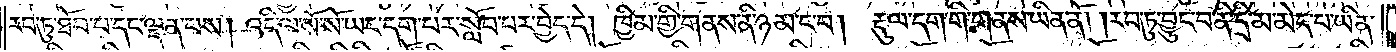རབ་ཏུ་ཐོབ་པ་དང་ལྡན་པས། འདི་ལ་སོ་སོ་ཡང་དག་པར་སློབ་པར་བྱེད་དེ། ཁྱིམ་གྱི་གནས་ནི་ཉམ་ང་བ། རྡུལ་དག་གི་གནས་ཡིན་ནོ། །རབ་ཏུ་བྱུང་བ་ནི་དྲི་མ་མེད་པ་ཡིན་
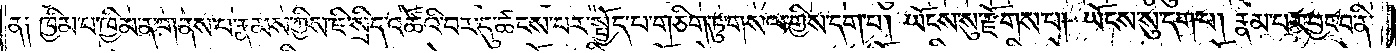ན༑ ཁྱིམ་པ་ཁྱིམ་ན་གནས་པ་རྣམས་ཀྱིས་ཇི་སྲིད་འཚོའི་བར་དུ་ཚངས་པར་སྤྱོད་པ་གཅིག་ཏུ་གསལ་གྱིས་དག་པ། ཡོངས་སུ་རྫོགས་པ། ཡོངས་སུ་དག་པ། རྣམ་པར་བྱང་བ་ནི་
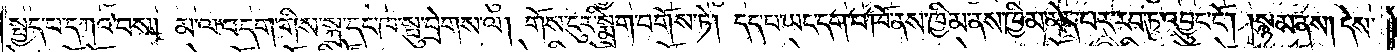སྤྱད་པ་དཀའ་བས། མ་ལ་བདག་གིས་སྐྲ་དང་ཁ་སྤུ་བྲེགས་ལ། གོས་ངུར་སྨྲིག་བགོས་ཏེ། དད་པ་ཡང་དག་པ་ཁོ་ནས་ཁྱིམ་ནས་ཁྱིམ་མེད་པར་རབ་ཏུ་འབྱུང་ངོ༌། །སྙམ་ནས། དེས་
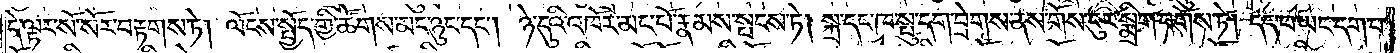དེ་ལྟར་སོ་སོར་བརྟགས་ཏེ། ལོངས་སྤྱོད་གྱི་ཚོགས་མང་ཉུང་དང༌། ཉེ་དུའི་འཁོར་མང་པོ་རྣམས་སྤངས་ཏེ། སྐྲ་དང་ཁ་སྤུ་དག་བྲེགས་ནས་གོས་ངུར་སྨྲིག་བགོས་ཏེ། དད་པ་ཡང་དག་པ་
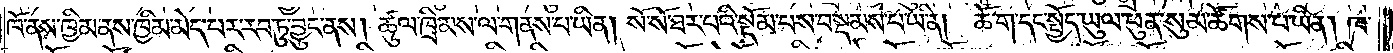ཁོ་ནས་ཁྱིམ་ནས་ཁྱིམ་མེད་པར་རབ་ཏུ་བྱུང་ནས། ཚུལ་ཁྲིམས་ལ་གནས་པ་ཡིན། སོ་སོ་ཐར་པའི་སྡོམ་པས་བསྡམས་པ་ཡིན། ཆོ་ག་དང་སྤྱོད་ཡུལ་ཕུན་སུམ་ཚོགས་པ་ཡིན། ཁ་
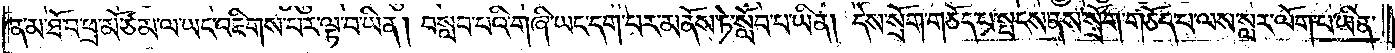ན་མ་ཐོ་བ་ཕྲ་མོ་ཙམ་ལ་ཡང་འཇིགས་པར་ལྟ་བ་ཡིན། བསླབ་པའི་གཞི་ཡང་དག་པར་མནོས་ཏེ་སློབ་པ་ཡིན། དེས་སྲོག་གཅོད་པ་སྤངས་ནས་སྲོག་གཅོད་པ་ལས་སླར་ལོག་པ་ཡིན་
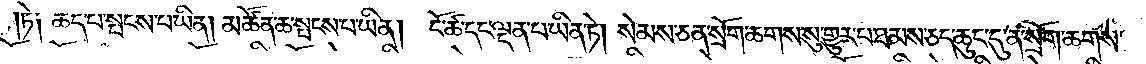ཏེ༑ ཆད་པ་སྤངས་པ་ཡིན། མཚོན་ཆ་སྤངས་པ་ཡིན། ངོ་ཚ་དང་ལྡན་པ་ཡིན་ཏེ། སེམས་ཅན་སྲོག་ཆགས་སུ་གྱུར་པ་ཐམས་ཅད་ཆུང་ངུ་ན་སྲོག་ཆགས་
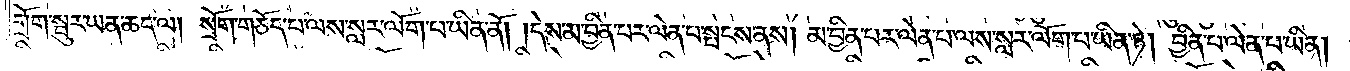གྲོག་སྦུར་ཡན་ཆད་ལ། སྲོག་གཅོད་པ་ལས་སླར་ལོག་པ་ཡིན་ནོ། །དེས་མ་བྱིན་པར་ལེན་པ་སྤངས་ནས། མ་བྱིན་པར་ལེན་པ་ལས་སླར་ལོག་པ་ཡིན་ཏེ། བྱིན་པ་ལེན་པ་ཡིན།
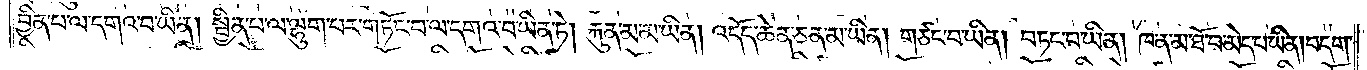བྱིན་པ་ལ་དགའ་བ་ཡིན། སྦྱིན་པ་ལ་ལྷུག་པར་གཏོང་བ་ལ་དགའ་བ་ཡིན་ཏེ། རྐུན་མ་མ་ཡིན། འདོད་ཆེན་ཅན་མ་ཡིན། གཙང་བ་ཡིན། བཏང་བ་ཡིན། ཁ་ན་མ་ཐོ་བ་མེད་པ་ཡིན། བདག་
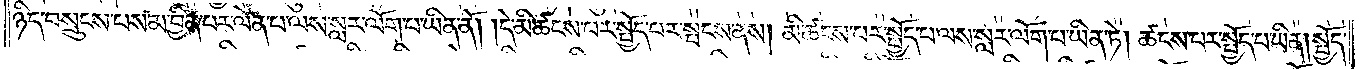ཉིད་བསྲུངས་པས་མ་བྱིན་པར་ལེན་པ་ལས་སླར་ལོག་པ་ཡིན་ནོ། །དེ་མི་ཚངས་པར་སྤྱོད་པར་སྤངས་ནས། མི་ཚངས་པར་སྤྱོད་པ་ལས་སླར་ལོག་པ་ཡིན་ཏེ། ཚངས་པར་སྤྱོད་པ་ཡིན། སྤྱོད་
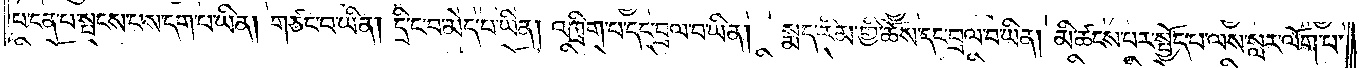པ་ངན་པ་སྤངས་པས་དག་པ་ཡིན། གཙང་བ་ཡིན། དྲི་ང་བ་མེད་པ་ཡིན། འཁྲིག་པ་དང་བྲལ་བ་ཡིན། སྨད་རིམ་གྱི་ཆོས་དང་བྲལ་བ་ཡིན། མི་ཚངས་པར་སྤྱོད་པ་ལས་སླར་ལོག་པ་
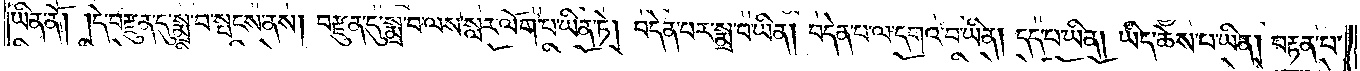ཡིན་ནོ། །དེ་བརྫུན་དུ་སྨྲ་བ་སྤངས་ནས། བརྫུན་དུ་སྨྲ་བ་ལས་སླར་ལོག་པ་ཡིན་ཏེ། བདེན་པར་སྨྲ་བ་ཡིན། བདེན་པ་ལ་དགའ་བ་ཡིན། དད་པ་ཡིན། ཡིད་ཆེས་པ་ཡིན། བརྟན་པ་
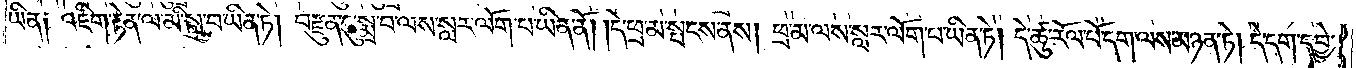ཡིན༑ འཇིག་རྟེན་ལ་མི་སླུ་བ་ཡིན་ཏེ། བརྫུན་དུ་སྨྲ་བ་ལས་སླར་ལོག་པ་ཡིན་ནོ། །དེ་ཕྲ་མ་སྤངས་ནས། ཕྲ་མ་ལས་སླར་ལོག་པ་ཡིན་ཏེ། དེ་ཚུ་རོལ་པོ་དག་ལས་མཉན་ཏེ། དེ་དག་དབྱེ་
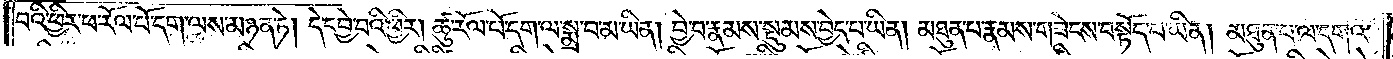བའི་ཕྱིར་ཕ་རོལ་པོ་དག་ལས་མཉན་ཏེ། དེ་དབྱེ་བའི་ཕྱིར། ཚུ་རོལ་པོ་དག་ལ་སྨྲ་བ་མ་ཡིན། བྱེ་བ་རྣམས་སྡུམས་བྱེད་པ་ཡིན། མཐུན་པ་རྣམས་གཟེངས་བསྟོད་པ་ཡིན། མཐུན་པ་ལ་དགའ་
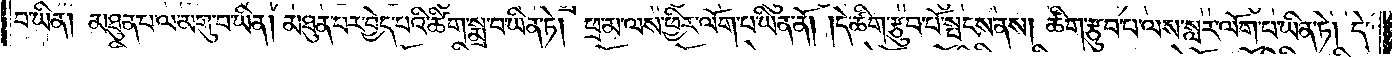བ་ཡིན། མཐུན་པ་ལ་མགུ་བ་ཡིན། མཐུན་པར་བྱེད་པའི་ཚིག་སྨྲ་བ་ཡིན་ཏེ། ཕྲ་མ་ལས་ཕྱིར་ལོག་པ་ཡིན་ནོ། །དེ་ཚིག་རྩུབ་པོ་སྤངས་ནས། ཚིག་རྩུབ་པ་ལས་སླར་ལོག་པ་ཡིན་ཏེ། དེ་
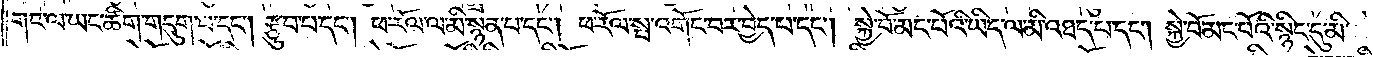གང་ལ་ཡང་ཚིག་གདུག་པ་དང༌། རྩུབ་པ་དང༌། ཕ་རོལ་ལ་མི་སྙན་པ་དང༌། ཕ་རོལ་སྤ་འགོང་བར་བྱེད་པ་དང༌། སྐྱེ་བོ་མང་པོའི་ཡིད་ལ་མི་འཐད་པ་དང༌། སྐྱེ་བོ་མང་པོའི་སྙིང་དུ་མི་
